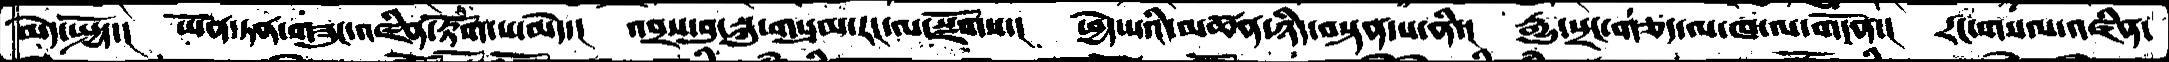མེད་སྤྱོད་།   ཡོན་ཏན་གཟུང་འཛིན་རྟོག་པ་མེད་།  འབྲས་བུ་སྐུ་གསུམ་རང་ལ་སྫོགས་།  ཕྱེད་པའི་མཚན་ཉིད་བསྟན་པ་ནི་།  རྒྱུ་སྲང་གཅད་ལ་ཁ་ལ་གདོན་།  རང་གསལ་འཛིན་
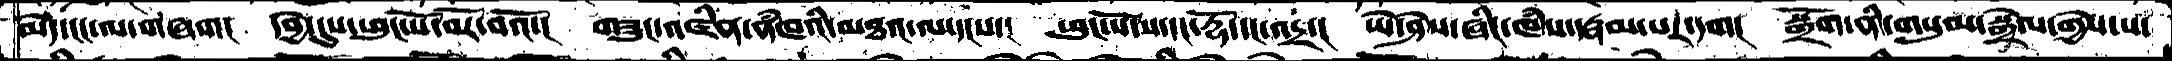མེད་ངང་ལ་གཞག།  དབྱེ་དུས་ཕུང་པོ་བོར་བའོ་།  གཟུང་འཛིན་ནཾཁའི་མཐའ་ལ་དངས་།  ཕུང་པོ་ས་དང་དྷོ་དང་འདྲ་།  ཡེ་ཤེས་ཞིང་ཁཾས་རྣམ་པར་དག།  སྒྲོག་ནི་གསུམ་སྒྲེལ་གྱེས་པ་
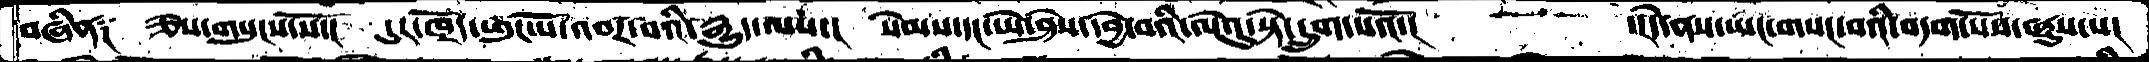བཞིན༑   ཅེས་གསུངས་སོ་།    དུར་ཁྲོད་ཕུང་པོ་འབར་བའི་རྒྱུད་ལས་།  སེམས་དང་ཡེ་ཤེས་དབྱེ་བའི་ལེའུ་སྟེ་དྲུག་པའོ་།       ་།དེ་ནས་ཡང་གསང་བའི་བདག་པོས་ཞུས་པ།
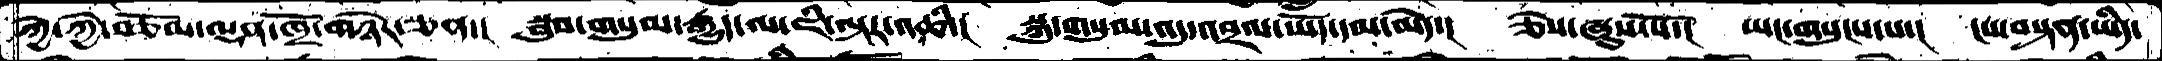ཀྱེ་ཀྱེ་བཅོམ་ལྡན་ཁྲོ་གཉེར་ཅན་།   སྦུབ་གསུམ་རྒྱུད་ལ་ཇི་ལྟར་འཆི་།    སྐུ་གསུམ་འདུ་འབྲལ་ཡོད་དམ་མེད་།   ཅེས་ཞུས་སོ་།  ཡང་གསུངས་པ་།  ངས་བསྟན་ཡིད་
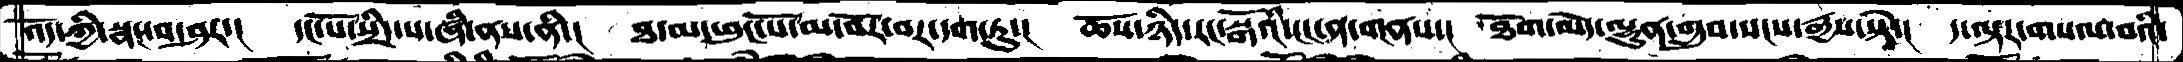འོད་ཀྱི་སྣང་བ་ཤར་།  དང་པོ་སྲིད་པ་ཞི་ནས་ནི་།  ཐ་མ་ཕུང་པོ་མ་བོར་བར་དག་ཏུ་།  ཆོས་ཉིད་རང་སྒོའི་ངང་ཤ་གནས་།   ཐོག་མེད་ལྷུན་གྲུབ་སངས་རྒྱས་སྟེ་།  ད་ལྟར་གསལ་བའི་
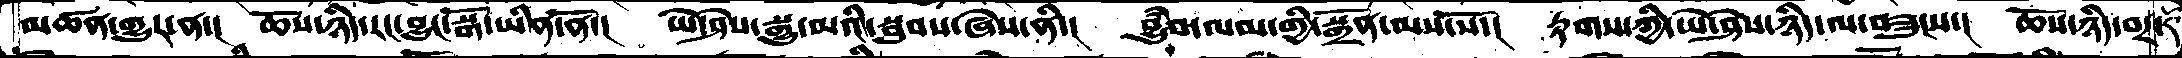མཚན་གྱུར་ན་།  ཆོས་ཉིད་རང་བྱུང་སྒོ་ཡིན་ནོ་།  ཡེ་ཤེས་སྒྱུ་མའི་སྦུབས་ཞེས་ནི་།  བྱུཾབ་ལམ་གྱི་སྒྲོན་མས་སོ་།  རྟགས་ཀྱི་ཡེ་ཤེས་ཉིད་ལ་བཟུངས་།  ཆོས་ཉིད་བར་དོ་
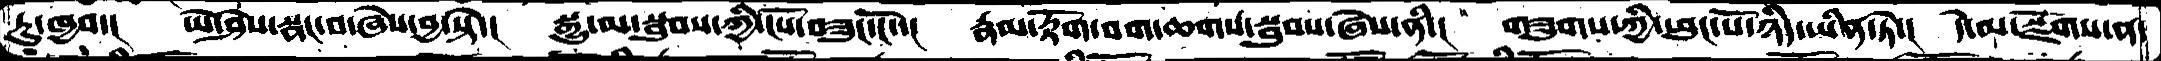ཏུ་ཁྱབ་།  ཡེ་ཤེས་སྣང་བ་ཞེས་བྱ་སྟེ་།   སྒྱུ་མ་སྦུབས་ཀྱི་ངོས་བཟུང་ངོ་་།  རྣམ་རྟོག་བག་ཆགས་སྦུབས་ཞེས་ནི་།  གཟུགས་ཀྱི་ཕུང་པོ་ཉིད་ཡིན་ཏེ་།  དེ་ལ་སྫོགས་ན་
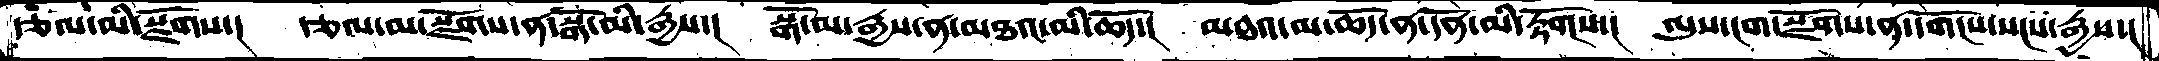རྩལ་མི་སྫོགས་།    རྩལ་མ་སྫོགས་ན་སྒོ་མི་རྒྱས་།  སྒོ་མ་རྒྱས་ན་མཐའ་མི་ཆོད་།  མཐའ་མ་ཆོད་ན་དོན་མི་རྟོགས་།  ལུས་ངག་སྫོགས་ན་དགོངས་སངས་རྒྱས་།
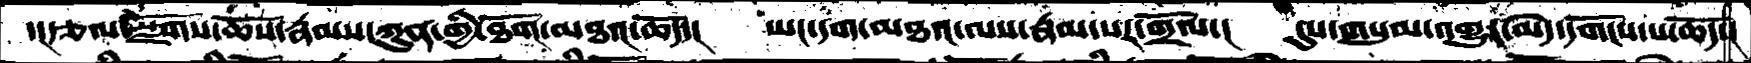་།རྩལ་སྫོགས་ཆོས་རྣམས་ཀུན་གྱི་ཐོག་མཐའ་ཆོད་།   ཡང་དག་མཐའ་ལས་རྣམ་པར་གྲོལ་།  དུས་གསུམ་འགྱུར་མེད་དགོངས་པ་ཆོད་།
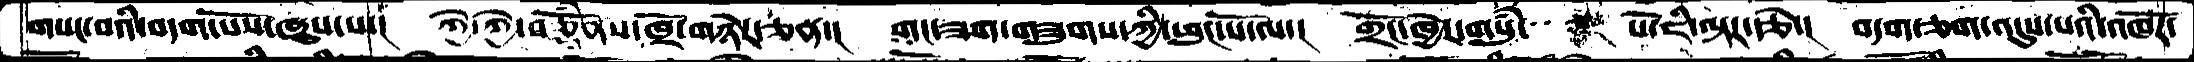གསང་བའི་བདག་པོས་ཞུས་པ་།  ཀྱེ་ཀྱེ་བཅྡོཾནས་ཁྲོ་གཉེར་ཅན་།  གང་ཟག་གཟུགས་ཀྱི་ཕུང་པོ་ལ་།  གྲོང་ཁྱེར་གསུཾ་པོ་ཇི་ལྟར་དཙེ་།  བདག་ཅག་འདུས་པའི་འཁོར་
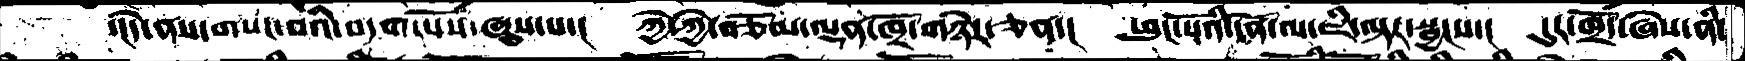་།དེ་ནས་གསང་བའི་བདག་པོས་ཞུས་པ་།  ཀྱེ་ཀྱེ་བཅོམ་ལྡན་ཁྲོ་གཉེར་ཅན་།  ཕུང་པོའི་དོན་ལ་ཇི་ལྟར་སྦྱངས་།  དུར་ཁྲོད་ཞེས་ནི་
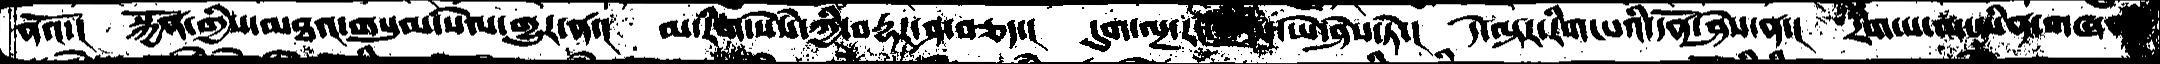ནའོ་།  སྐྱོན་གྱིས་མཐའ་གསུམ་སེལ་གྱུར་ན་།  མ་རིག་སེཾས་ཀྱི་བརྡར་ཤ་བཅད་།  དུག་ལྔ་རང་གྲོལ་ཡེ་ཤེས་ཏེ་།  དེ་ལྟར་རིག་པའི་དོན་ཤེས་ན་།  རིག་པ་མ་ཡིན་གཞན་
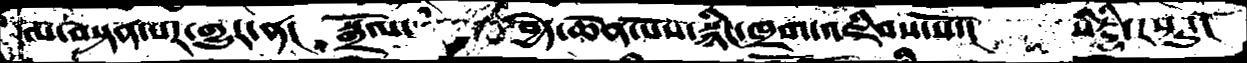ལ་བསྟན་པར་གྱུར་ན།  སྒྲོལ་    བྱེད་ཆེན་པོས་སྙིང་ཁྲག་འཇིབས་སོ་།  སིཏྡྷི་རསྟུ།
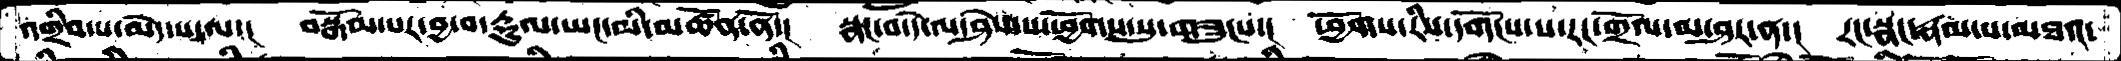འགྲིབ་པ་མེད་པ་ལ་།   བསྒོམ་པར་བྱ་བ་རྡུལ་ཡང་མི་མཚོན་ནོ་།   སྣང་བ་དེ་ལ་ཤེས་པ་ཕྱོགས་སུ་གཟུངས་།  ཕྱོགས་རིས་དགོངས་པ་རང་གྲོལ་མ་ཤར་ན་།  རང་སྣང་རྣམ་པ་མཐའ་
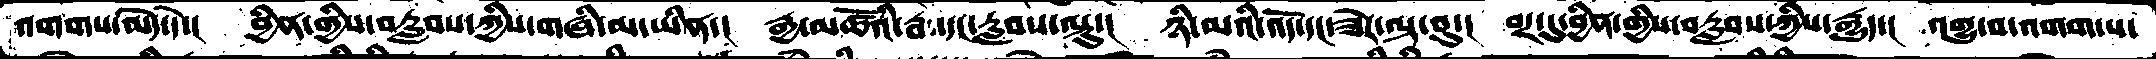འགགས་མེད་དེ་།  བྱིན་གྱིས་བརླབས་ཀྱིས་གཞི་མ་ཡིན་།  རྒྱ་མཚོའི་རྦ་དང་རླབས་ལྟུ་།  ཉི་མའི་འོད་དང་ཟེར་ལྟ་བུ་།  བར་དུ་བྱིན་གྱིས་བརླབས་ཀྱིས་རྒྱུད་།  འགྱུ་བ་འགག་པ་
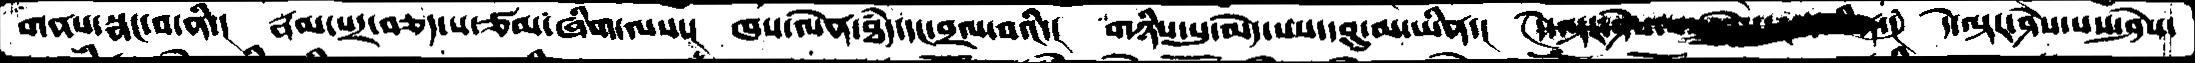གནས་སྣང་བ་ནི་།  རྣམ་པར་བཅད་པ་ཙམ་ཞིག་ལས་།  ཁས་ལེན་ཐཾད་དང་བྲལ་བའི་།  གཉིས་སུ་མེད་པས་དབུ་མ་ཡིན་། དེ་ལྟར་ཤེས་པས་ཤེས་
